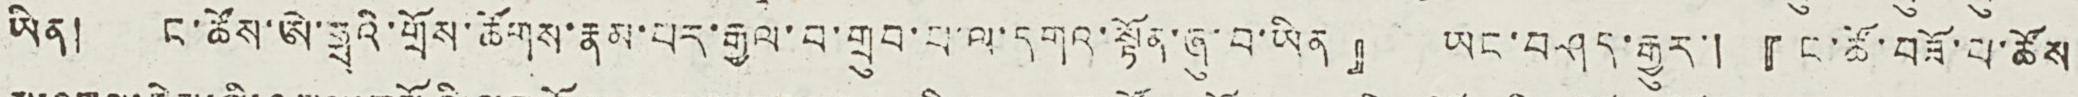ཡིན། ང་ཚོས་ཨེ་ཧྥའི་གྲོས་ཚོགས་རྣམ་པར་རྒྱལ་བ་གྲུབ་པ་ལ་དགའ་སྟོན་ཞུ་བ་ཡིན』 ཡང་བཤད་རྒྱུར་། 『ང་ཚོ་བཟོ་པ་ཚོས
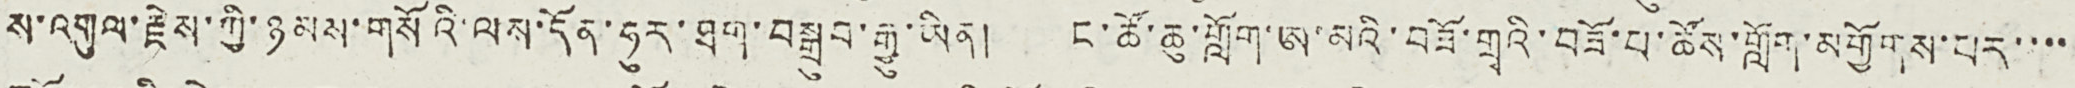ས་འགུལ་རྗེས་ཀྱི་ཉམས་གསོའི་ལས་དོན་ཧུར་ཐག་བསྒྲུབ་རྒྱུ་ཡིན། ང་ཚོ་ཆུ་གློག་ཨ་མའི་བཟོ་གྲྭའི་བཟོ་པ་ཚོས་གློག་མགྱོགས་པར་་་་
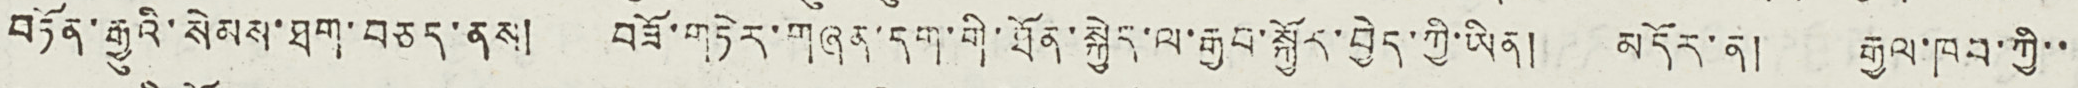བཏོན་རྒྱུའི་སེམས་ཐག་བཅད་ནས། བཟོ་གཏེར་གཞན་དག་གི་ཐོན་སྐྱེད་ལ་རྒྱབ་སྐྱོར་བྱེད་ཀྱི་ཡིན། མདོར་ན། རྒྱལ་ཁབ་ཀྱི་་
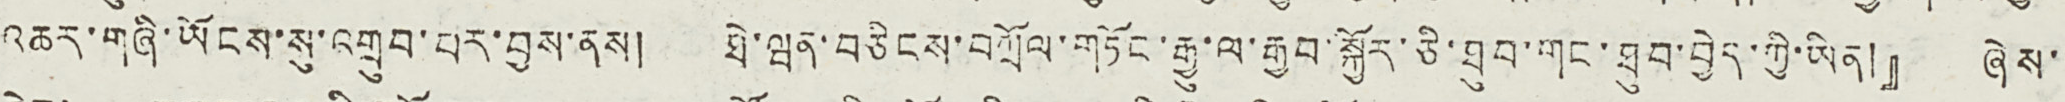འཆར་གཞི་ཡོངས་སུ་འགྲུབ་པར་བྱས་ནས། ཐེ་ཝན་བཅིངས་བཀྲོལ་གཏོང་རྒྱུ་ལ་རྒྱབ་སྐྱོར་ཅི་ཐུབ་གང་ཐུབ་བྱེད་ཀྱི་ཡིན།』 ཞེས་
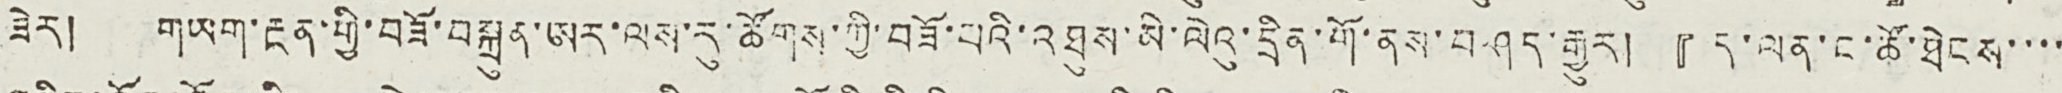ཟེར། གཡག་རྔན་གྱི་བཟོ་བསྐྲུན་ཨར་ལས་རུ་ཚོགས་ཀྱི་བཟོ་པའི་འཐུས་མི་ལེའུ་དྲིན་གོ་ནས་བཤད་རྒྱུར། 『ད་ལན་ང་ཚོ་ཐེངས་་་་
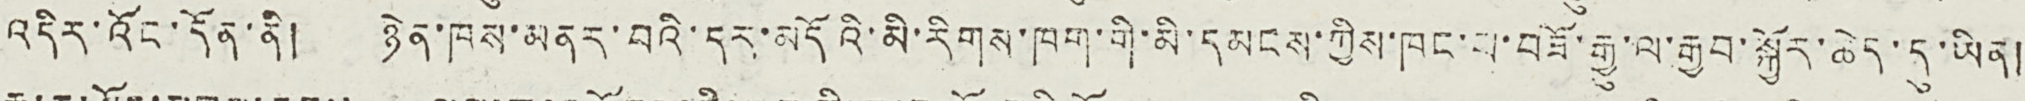འདིར་འོང་དོན་ནི། ཉེན་ཁས་མནར་བའི་དར་མདོའི་མི་རིགས་ཁག་གི་མི་དམངས་ཀྱིས་ཁང་པ་བཟོ་རྒྱུ་ལ་རྒྱབ་སྐྱོར་ཆེད་དུ་ཡིན།
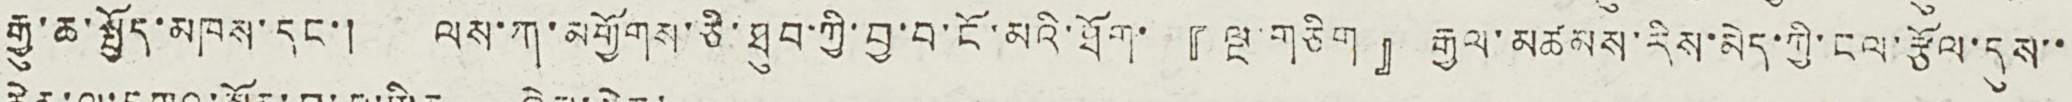རྒྱུ་ཆ་སྤྱོད་མཁས་དང་། ལས་ཀ་མགྱོགས་ཅི་ཐུབ་ཀྱི་བྱ་བ་ངོ་མའི་ཐོག་『ལྔ་གཅིག』རྒྱལ་མཚམས་རིས་མེད་ཀྱི་ངལ་རྩོལ་དུས་་
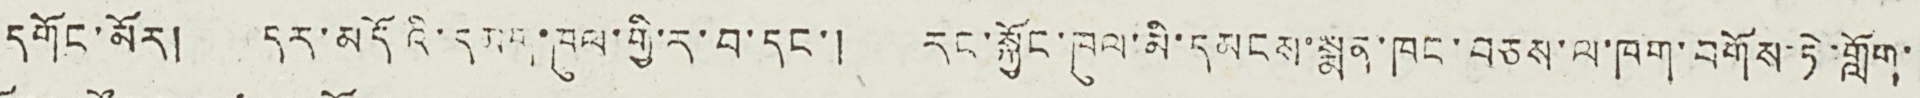དགོང་མོར། དར་མདོའི་དམག་ཁུལ་གྱི་ར་བ་དང་། རང་སྐྱོང་ཁུལ་མི་དམངས་སྨན་ཁང་བཅས་ལ་ཁག་བགོས་ཏེ་གློག་
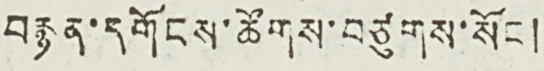བརྙན་དགོངས་ཚོགས་བཙུགས་སོང །
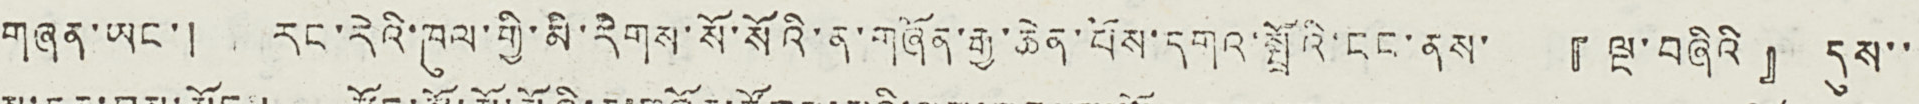གཞན་ཡང་། རང་རེའི་ཁུལ་གྱི་མི་རིགས་སོ་སོའི་ན་གཞོན་རྒྱ་ཆེན་པོས་དགའ་སྤྲོའི་ངང་ནས་ 『ལྔ་བཞིའི』 དུས་་
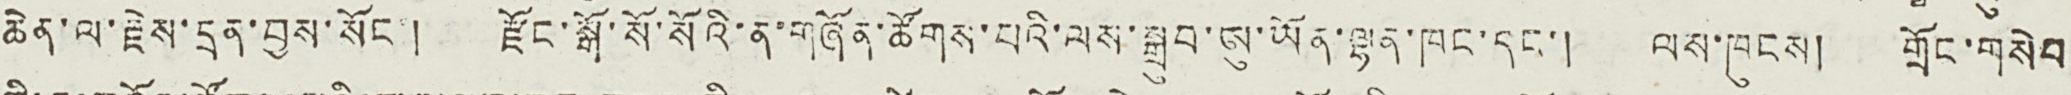ཆེན་ལ་རྗེས་དྲན་བྱས་སོང་། རྫོང་སྒོ་སོ་སོའི་ན་གཞོན་ཚོགས་པའི་ལས་སྒྲུབ་ཨུ་ཡོན་ལྷན་ཁང་དང་། ལས་ཁུངས། གྲོང་གསེབ
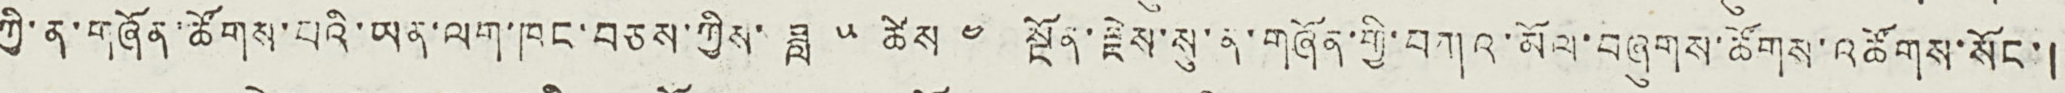ཀྱི་ན་གཞོན་ཚོགས་པའི་ཡན་ལག་ཁང་བཅས་ཀྱིས་ཟླ་ ༥ ཚེས ༤ སྔོན་རྗེས་སུ་ན་གཞོན་ཀྱི་བཀའ་མོལ་བཞུགས་ཚོགས་འཚོགས་སོང་།
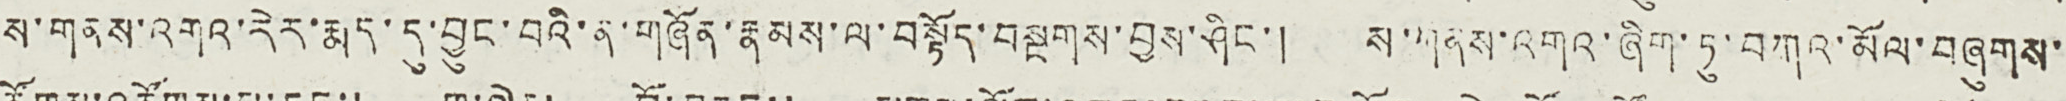ས་གནས་འགའ་རེར་རྨད་དུ་བྱུང་བའི་ན་གཞོན་རྣམས་ལ་བསྟོད་བསྔགས་བྱས་ཤིང་། ས་གནས་འགའ་ཞིག་ཏུ་བཀའ་མོལ་བཞུགས་
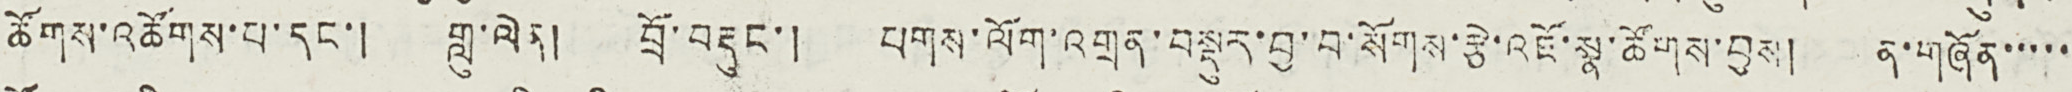ཚོགས་འཚོགས་པ་དང་། གླུ་ལེན། བྲོ་བརྡུང་། པགས་ལོག་འགྲན་བསྡུར་བྱ་བ་སོགས་རྩེ་འཇོ་སྣ་ཚོགས་བྱས། ན་གཞོན་་་་་
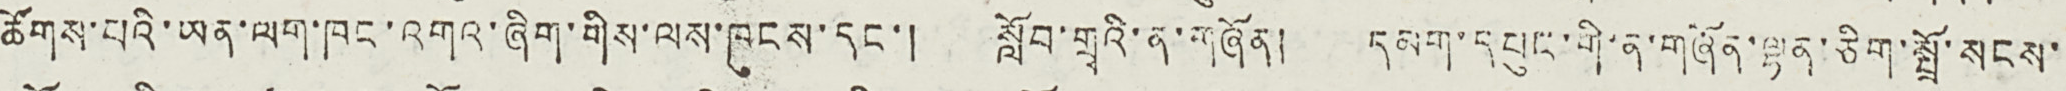ཚོགས་པའི་ཡན་ལག་ཁང་འགའ་ཞིག་གིས་ལས་ཁུང་དང་། སློབ་གྲྭའི་ན་གཞོན། དམག་དཔུང་གི་ན་གཞོན་ལྷན་ཅིག་སྤྲོ་སངས་
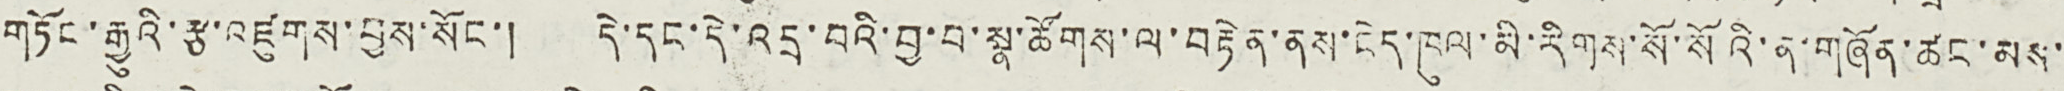གཏོང་རྒྱུའི་རྩ་འཛུགས་བྱས་སོང་། དེ་དང་དེ་འདྲ་བའི་བྱ་བ་སྣ་ཚོགས་ལ་བརྟེན་ནས་ངེད་ཁུལ་མི་རིགས་སོ་སོའི་ན་གཞོན་ཚང་མས་
